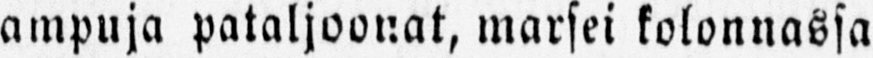ampuja pataljoonat, marsei kolonnassa
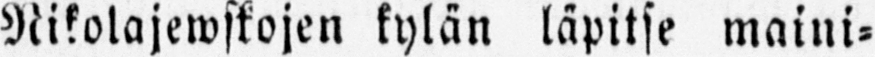Nikolajewskojen kylän läpitse maini-
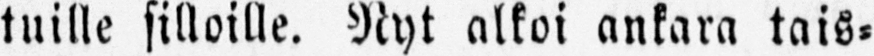tuille silloille. Nyt alkoi ankara tais-
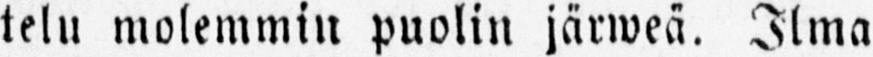telu molemmin puolin järweä. Ilma
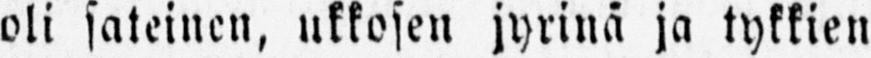oli sateinen, ukkosen jyrinä ja tykkien
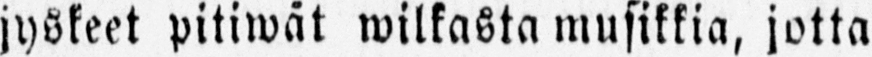jyskeet pitiwät wilkasta musikkia, jotta
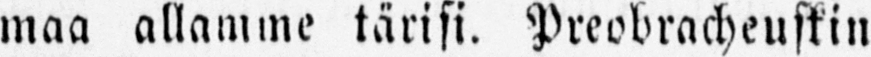maa allamme tärisi. Preobracheuskin
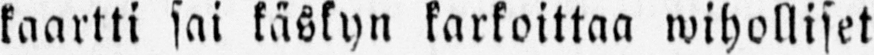kaartti sai käskyn karkoittaa wiholliset
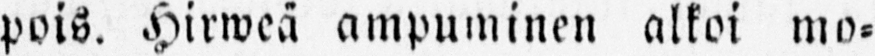pois. Hirweä ampuminen alkoi mo-
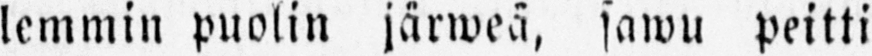lemmin puolin järweä, sawu peitti
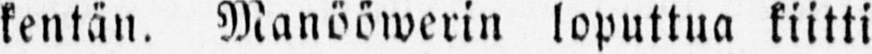kentän. Manööwerin loputtua kiitti
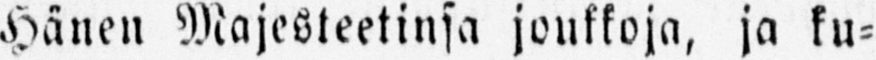Hänen Majesteetinsa joukkoja, ja ku-
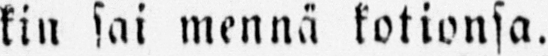kin sai mennä kotionsa.
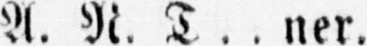A. N. T. . ner.
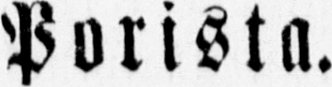Porista.
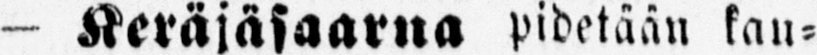— Keräjäsaarna pidetään kau-
